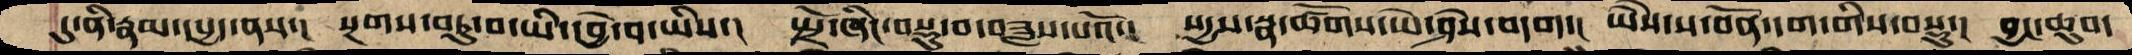དུ་ནི་རྣམ་དཔྱད་ནས་།  སྔགས་བཏུ་བ་ཡི་དབྱེ་བ་ཡིས་།  སྤྲོ་ཞིང་བསྡུ་བ་བཟླས་པའོ་།  སདྱས་སྣ་ཚོགས་ཡེ་ཤེས་བདག་།  ཡཻས་ས་བོན་དག་གིས་བསྡུ་།  བྱང་ཆུབ་
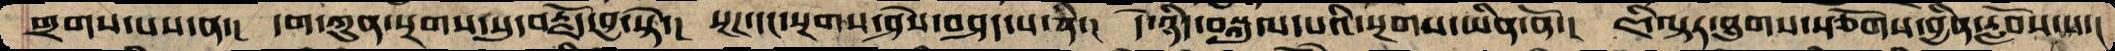གྲགས་པས་ན་།  དག་ཀུན་སྔགས་སུ་བརྗོད་བྱ་སྟེ་།  སྔཌ་དང་སྔགས་ཤེས་བཤད་པ་ནི་།  དེ་ཉིད་བསྐུལ་པའི་སྔགས་ཡིན་ནོ་།  ཇི་ལྟར་ཐུགས་སྩོགས་བྱིན་རློབས་པ་།
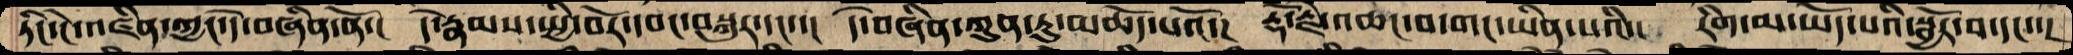ཏིང་ངེ་འཛིན་ཀྱང་དེ་བཞིན་ནོ་།  དེ་རྣམས་སྤྱི་བོར་དབང་བསྐུར་དང་་།  དེ་བཞིན་ཀུན་ཏུ་མཆོད་པའོ་།   རྡོ་རྗེ་འཆང་བ་གང་ཡིན་པའི་།  རིག་མ་ཡོད་པའི་སྦྱོར་བ་དང་་།
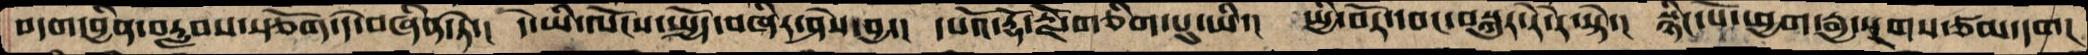བདག་བྱིན་བརླབས་སྩོག་དེ་བཞིན་ཏེ་།  དེ་ཡི་ལོངས་སྤྱོད་བཞིར་ཤེས་བྱ་།  དཔའོ་རྡོ་རྗེ་གཅིག་པུ་ཡི་།  སྤྱི་བོར་དབང་བསྐུར་རེ་རེ་སྟེ་།  སྙིང་པོ་ཕྱག་རྒྱ་སྔགས་ཙམ་དག།
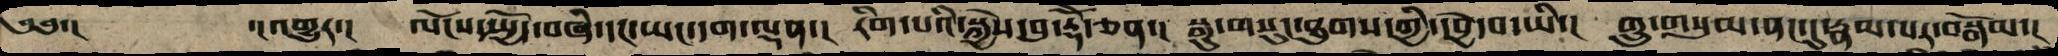༄༅་།     ་།འགྱུར་།   ལོངས་སྤྱོད་བཞི་དང་ཡང་དག་ལྡན་།  རིག་པའི་སྐྱེས་བུ་རྡོེ་ཅན་། སྐུ་གསུང་ཐུགས་ཀྱི་དབྱེ་བ་ཡི་།  གྲུ་གསུམ་ནང་དུ་རྣམ་པར་བསྒོམ་།
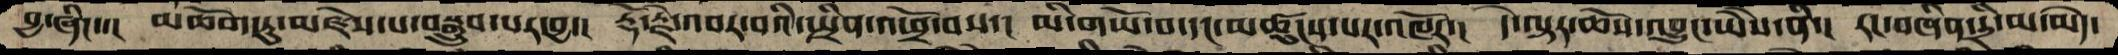བྱ་ཞིང་་།  མཆོག་ཏུ་མཛེས་པ་བསྒྲུབ་པར་བྱ་།  རྡོ་རྗེ་འབར་བའི་སྤྲིན་འཕྲོ་བས་།  མི་གཡོ་བ་དང་མཚུངས་པར་འཁོར་།  དེ་ལྟར་ཆོས་འབྱུང་ཡཻས་ནི་།  རང་བཞིན་དྲི་མ་མེད་
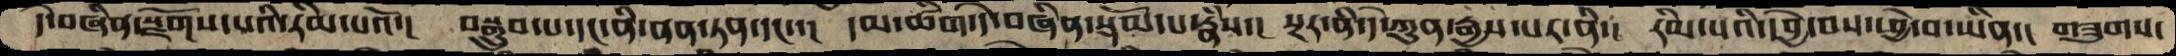དེ་བཞིན་སྫོགས་པའི་རིམ་པའོ་།  བསྒྲུབ་པ་དང་ནི་ནན་ཏན་དང་་།  དམ་ཚིག་དེ་བཞིན་སྡོམ་པ་རྣཾས་།  སྔར་ནི་དེ་ཀུན་རྒྱས་པར་ནི་།  རིམ་པའི་དབྱེ་བས་ཕྱེ་བ་ཡིན་།  གཟུགས་
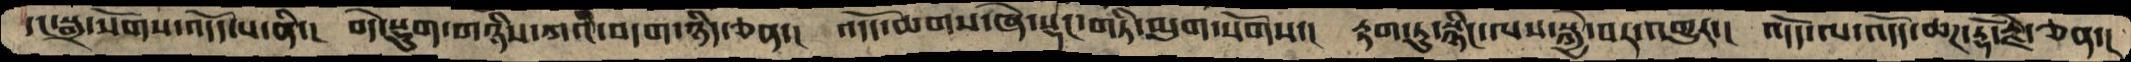དང་སྒྲ་སོགས་འདོད་པ་ནི་།  བདེ་སྡུག་གཉིས་ཀའི་བདག་ཉིད་ཅན་།  འདོད་ཆགས་ཞེ་སྡང་གཏི་མུག་སོགས་།  རྟག་ཏུ་སྙིང་ལས་སྐྱེ་བར་འགྱུར་།  འདོད་ལ་འདོད་ཆཌ་རྡོ་རྗེ་ཅན་།
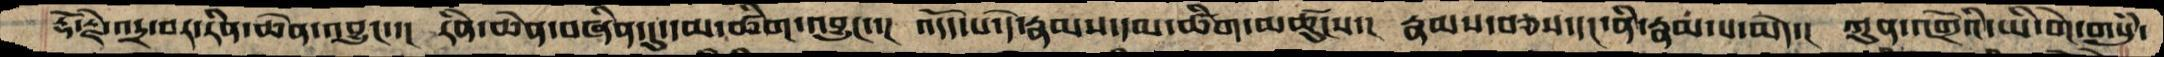རྡོ་རྗེ་འདྲ་བར་རིན་ཆེན་འབྱུང་་།  རིན་ཆེན་བཞིན་དུ་དམ་ཚིག་འབྱུང་་།  འདོད་པ་དེ་རྣམས་དམ་ཚིག་མཚུངས་།  རྣམས་བཅས་དང་ནི་རྣམ་པ་མེད་།  ཀུན་འགྲོའི་ཡི་གེ་གསུཾ་
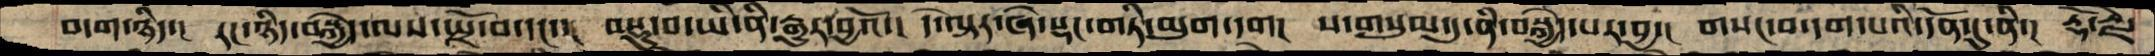བདག་ཉིད་།  རང་ཉིད་བསྐྱེད་ལས་སྤྲོ་བ་དང་་།  བསྡུ་བ་ཡི་ནི་རྒྱུར་བྱའོ་།  དེ་ལྟར་ཞེ་སྡང་གཏི་མུག་དག།  ས་གསུམ་དུ་ནི་བསྐྱེད་པར་བྱ་།  གསང་བ་དག་པའི་དོན་དུ་ནི་།  རྡོ་རྗེ་
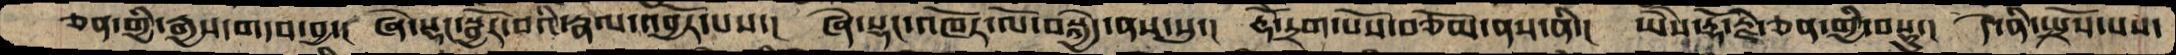ཅན་གྱི་རྒྱས་གདབ་བྱ་།  ཞེ་སྡང་སྦྱོར་བའི་རྣལ་འབྱོར་པས་།  ཞེ་སྡང་འཁོར་ལོ་བསྐྱེད་ནས་སུ་།  རྡོེ་དྲག་པོས་བཅོམ་ནས་ནི་།  ཡཻས་རྡོ་རྗེ་ཅན་གྱི་བསྡུ་།  དེ་ནི་སྤྲོས་པས་
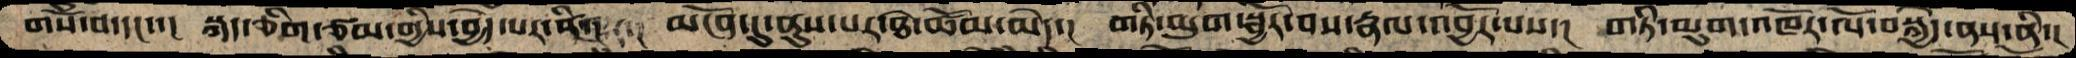གསོ་བ་དང་་།  སྐད་ཅིག་ཙམ་གྱིས་བྱེད་པར་ནི་།  མངོན་དུ་ནུས་པར་ཐེ་ཚོམ་མེད་།  གཏི་མུག་སྦྱོར་བས་རྣལ་འབྱོར་པས་།  གཏི་མུག་འཁོར་ལོ་བསྐྱེད་ནས་ནི་།
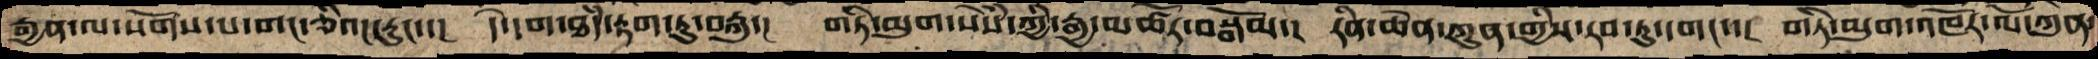རྒྱན་ལ་སོགས་པ་གང་ཅིའང་རུང་་།  དེ་དག་ཐཾད་རྟག་ཏུ་བརྐུ་།  གཏི་མུག་སེཾས་ཀྱི་རྒྱ་མཚོར་བསྒོམ་།  རིན་ཆེན་ཀུན་གྱིས་རབ་ཏུ་དགང་་།  གཏི་མུག་འཁོར་ལོ་ཀུན་
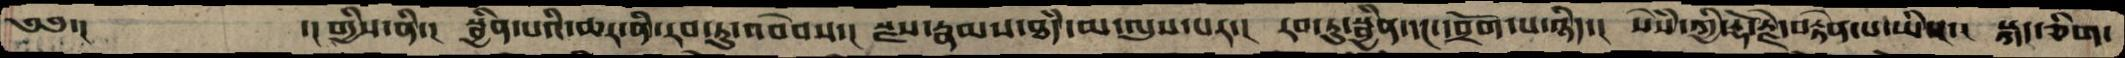༄༅་།          ་། གྱིས་ནི་།  སྦྱིན་པའི་ཆར་ནི་རབ་ཏུ་འབེབས་།  སྫས་རྣམས་ཐཾད་མ་ལུས་པར་།  རབ་ཏུ་སྦྱིན་དང་དབྲོག་པ་ཉིད་།  སེཾས་ཀྱི་རྡོ་རྗེ་བརྟེན་པ་ཡིས་།  སྐད་ཅིག་
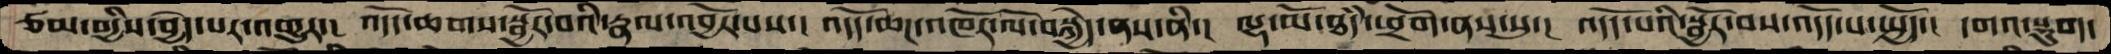ཙམ་གྱིས་བྱེད་པར་འགྱུར་།  འདོད་ཆགས་སྦྱོར་བའི་རྣལ་འབྱོར་པས་། འདོད་ཆཌ་འཁོར་ལོ་བསྐྱེད་ནས་ནི་།  ལྷ་མོ་ཐཾད་ཕྲོག་ནས་སུ་།  འདོད་པའི་སྦྱོར་བས་འདོད་པ་སྤྱོད་།  དགའ་སྡུག་
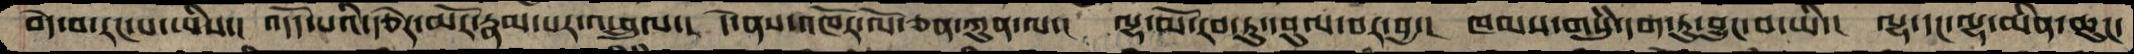བདེ་བ་རང་པ་ཡིས་།  འདོད་པའི་རྩེར་མོར་རྣམ་པར་འཕྲུལ་།  དེ་ནས་འཁོར་ལོ་ཅན་ཀུན་ལ་།  ལྷ་མོ་རབ་ཏུ་དབུལ་བར་བྱ་།  ཁམས་གསུཾ་དག་ཏུ་བྱུང་བ་ཡི་།  ལྷ་དང་ལྷ་མིན་ཆུང་
